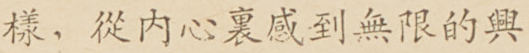樣，從內心裏感到無限的興
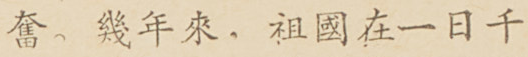奮。幾年來，祖國在一日千
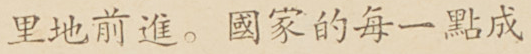里地前進。國家的每一點成
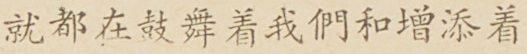就都在鼓舞着我們和增添着
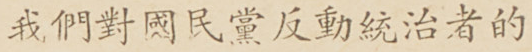我們對國民黨反動統治者的
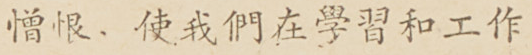憎恨，使我們在學習和工作
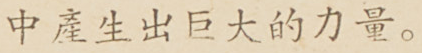中產生出巨大的力量。
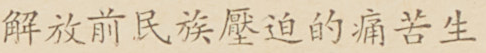解放前民族壓迫的痛苦生
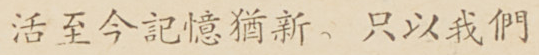活至今記憶猶新。只以我們
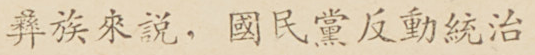彝族來說，國民黨反動統治
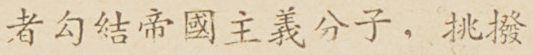者勾結帝國主義分子，挑撥
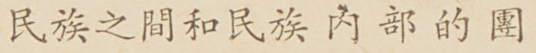民族之間和民族內部的團
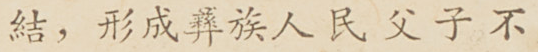結，形成彝族人民父子不
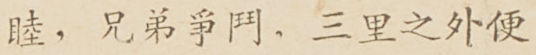睦，兄弟爭鬥，三里之外便
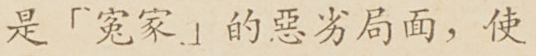是「冤家」的惡劣局面，使
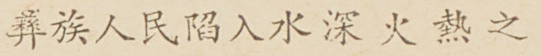彝族人民陷入水深火熱之
